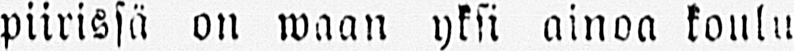piirissä on waan yksi ainoa koulu
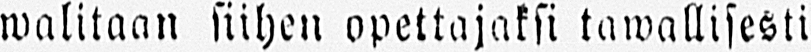walitaan siihen opettajaksi tawallisesti
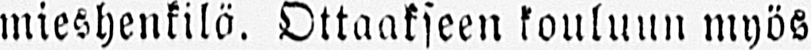mieshenkilö. Ottaakseen kouluun myös
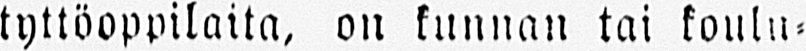tyttöoppilaita, on kunnan tai koulu-
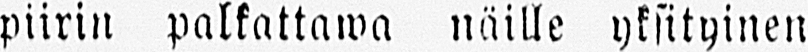piirin palkattawa näille yksityinen
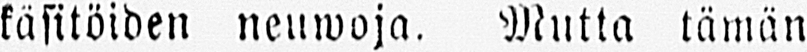käsitöiden neuwoja. Mutta tämän
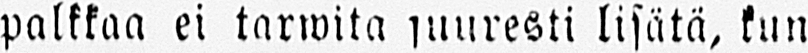palkkaa ei tarwita suuresti lisätä, kun
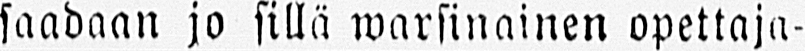saadaan jo sillä warsinainen opettaja-
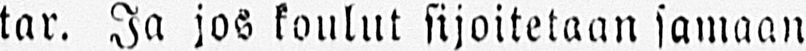tar. Ja jos koulut sijoitetaan samaan
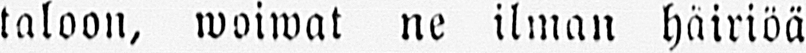taloon, woiwat ne ilman häiriöä
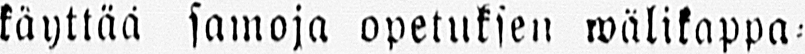käyttää samoja opetuksen wälikappa-
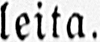leita.
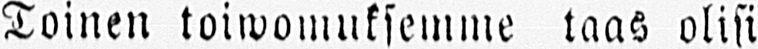Toinen toiwomuksemme taas olisi
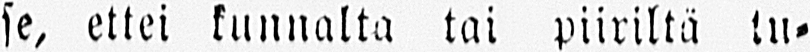se, ettei kunnalta tai piiriltä tu-
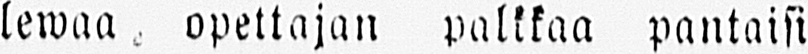lewaa opettajan palkkaa pantaisi
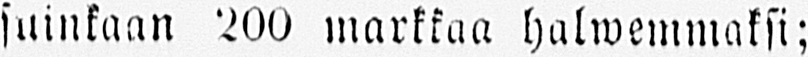suinkaan 200 markkaa halwemmaksi;
